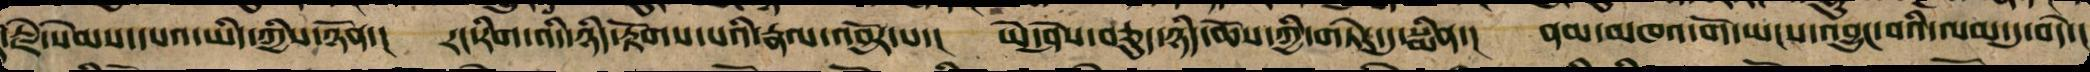རྡོ་རྗེ་སེམས་དཔའ་ཡིད་ཀྱིས་ཉོན་། རང་རིག་འདི་ཉིད་རྟོགས་པའི་རྣལ་འབྱོར་པ་། ཡེ་ཤེས་བཅུད་ཉིད་ཆོས་ཀྱི་གཏེར་དུ་སྨིན་། ནམ་མཁའ་གོ་ཡངས་འབྱུང་བའི་ལམ་དུ་བདེ་།
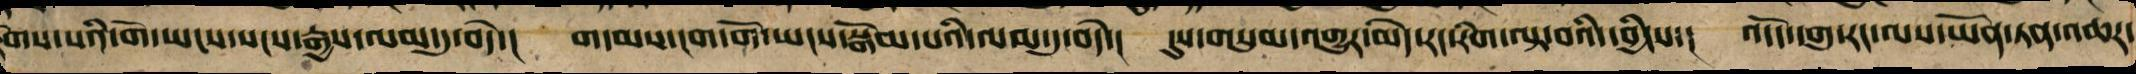གས་པའི་གོ་ཡངས་སངས་རྒྱས་ལམ་དུ་བདེ་། གདམས་ངག་གོ་ཡངས་སྒོམ་པའི་ལམ་དུ་བདེ་། དུས་གསུམ་འགྱུར་མེད་རང་རིག་ལྟ་བའི་དབྱིངས་། འདོད་དགུ་རང་ལས་ཡོན་ཏན་འཆར་
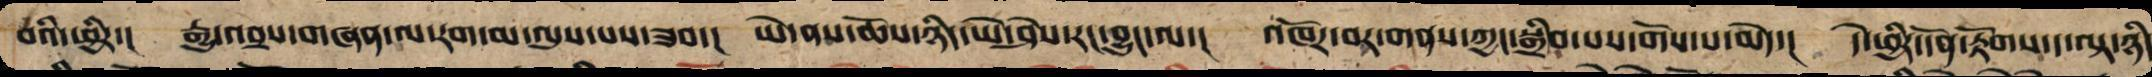བའི་ཕྱིར་། རྒྱུ་འབྲས་གཞན་ལ་རག་མ་ལུས་པས་ཟབ་། ཡེ་ནས་ཆོས་ཉིད་ཡེ་ཤེས་རང་བྱུང་ལ་། འཁོར་བར་གནས་ཀྱང་སྒྲིབ་པས་གོས་པ་མེད་། དེ་ཕྱིར་དོན་རྟོགས་ད་ལྟ་ཉིད
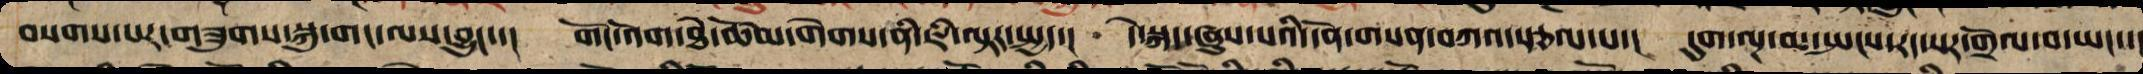བསགས་པར་གཟུགས་སྐུ་གང་ལས་འབྱུང་་། གོང་འོག་ཐེ་ཚོམ་གེགས་ནི་ཇི་ལྟར་སེལ་། དེ་སྐད་ཞུས་པའི་དོན་གསན་བཀའ་སྩལ་པ་། དུག་ལྔ་མ་སྤངས་རང་སར་གོལ་བ་ཡང་་།
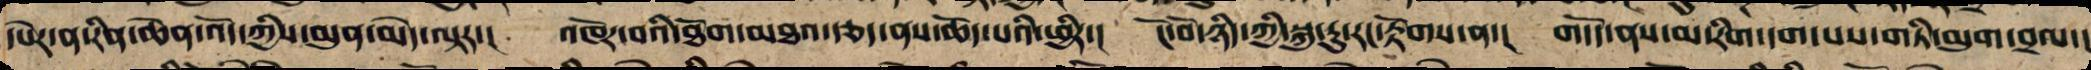དཔེར་ན་རིན་ཆེན་འོད་ཀྱིས་མུན་མེད་ལྟར་། འཁོར་བའི་ཐོག་མཐའ་རྩད་ནས་ཆོད་པའི་ཕྱིར་། ངོ་བོ་ཉིད་ཀྱི་སྐུ་རུ་རང་རྟོགས་ན་། གདོད་ནས་མ་རིག་དག་པས་གཏི་མུག་བྲལ་།
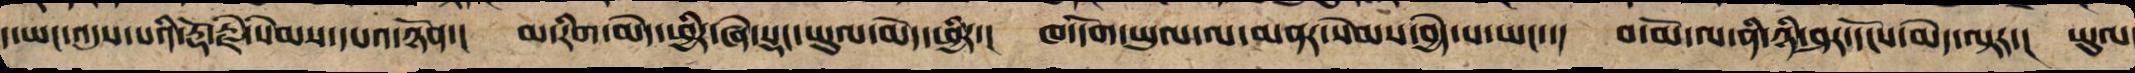ད་ཡང་འདུས་པའི་རྡོ་རྗེ་སེམས་དཔའ་ཉོན་། མ་རིག་མེད་ཕྱིར་ཞེ་སྡང་ཡུལ་མེད་ཕྱིར་། ཁ་དོག་ཡུལ་ལ་མནར་སེམས་བྱེད་པ་ཡང་་། བ་མོ་ལ་ནི་ཉི་ཤར་དངོས་མེད་ལྟར་། ཡུལ་
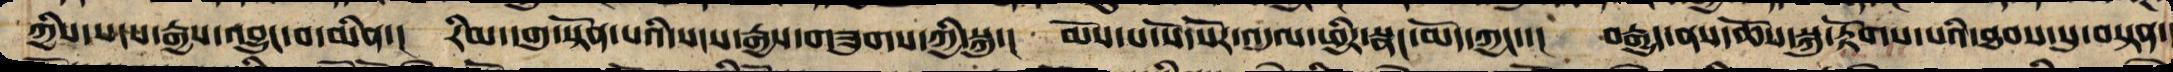ཀྱིས་སངས་རྒྱས་འབྱུང་བ་མིན་། རིམ་དགུ་སྟོན་པའི་སངས་རྒྱས་གཟུགས་ཀྱི་སྐུ་། མོས་པ་སོ་སོར་འདུལ་ཕྱིར་སྣང་མོད་ཀྱང་་། བརྒྱུད་ནས་ཆོས་སྐུ་རྟོགས་པའི་ཐབས་སུ་བསྟན་
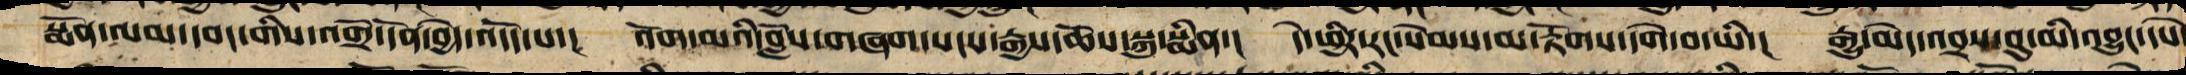སྨོན་ལམ་དབང་གིས་འགྲོ་དོན་བྱེད་འདོད་པ་། འོག་མའི་བློས་བཞག་སངས་རྒྱས་ཆོས་སྐུ་མིན་། དེ་ཕྱིར་རང་སེམས་མ་རྟོགས་དགེ་བ་ཡི་། རྒྱུ་མེད་འབྲས་བུ་མི་འབྱུང་དཔེ་
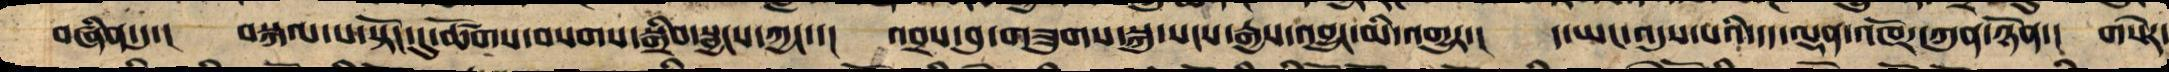བཞིན་དུ་། བསྐལ་པ་སྟོང་དུ་ཚོགས་བསགས་སྒྲིབ་སྦྱངས་ཀྱང་་། འབྲས་བུ་གཟུགས་སྐུ་སངས་རྒྱས་འབྱུང་མི་འགྱུར་། ད་ཡང་འདུས་པའི་དད་ལྡན་འཁོར་ཀུན་ཉོན་། གསེར་
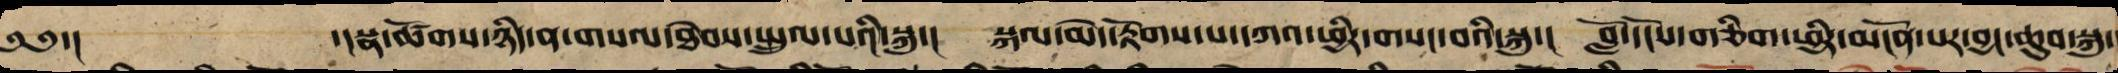༄༅་། ་།སྣ་ཚོགས་ཉིད་ན་གསལ་ཐེབས་སྤྲུལ་པའི་སྐུ་། སྐལ་མེད་རྟོགས་པ་དཀའ་ཕྱིར་གསང་བའི་སྐུ་། བློ་དངོས་གཅིག་ཕྱིར་མངོན་པར་བྱང་ཆུབ་སྐུ་
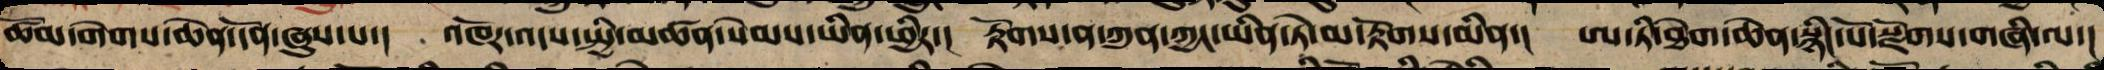ཚོམ་གེགས་ཆེན་དོན་ཞུས་པ་། འཁོར་འདས་སྤྱི་མཚན་སེམས་ཡིན་ཕྱིར་། རྟོགས་ན་ཀུན་ཀྱང་ཡིན་ཏེ་མ་རྟོགས་མིན་། ཨ་ཏི་ཐེག་ཆེན་སྙིང་པོ་སྫོགས་གཞི་ལ་།
